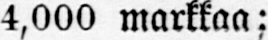4,000 markkaa;
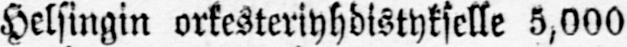Helsingin orkesteriyhdistykselle 5,000
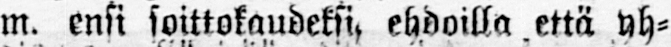m. ensi soittokaudeksi, ehdoilla että yh-
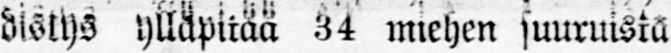distys ylläpitää 34 miehen suuruista
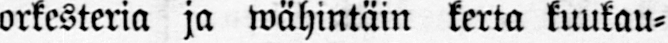orkesteria ja wähintäin kerta kuukau-
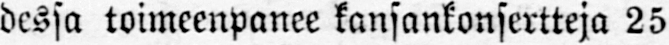dessa toimeenpanee kansankonsertteja 25
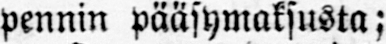pennin pääsymaksusta;
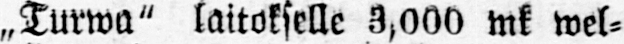„Turwa" laitokselle 3,000 mk wel-
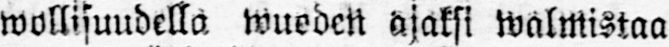wollisuudella wueden ajaksi walmistaa
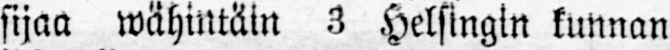sijaa wähintäin 3 Helsingin kunnan
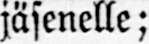jäsenelle;
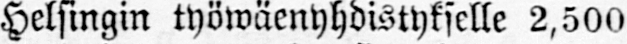Helsingin työeäenyhdistykselle 2,500
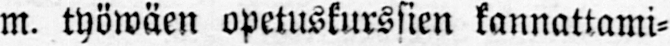m. työwäen opetuskurssien kannattami-
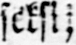seksi;
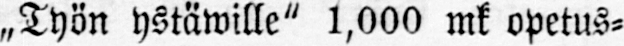„Työn ystäwille" 1,000 mk opetus-
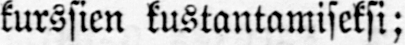kurssien kustantamiseksi;
